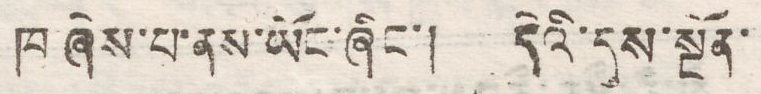ཁ ཞེས་པ་ནས་ཡོང་ཞིང་། དེའི་དུས་སྔོན་
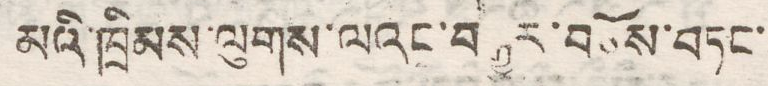མའི་ཁྲིམས་ལུགས་ལའང་བརྒྱུར་བཅོས་བཏང་
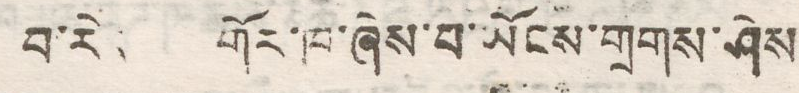བ་རེ། གོར་ཁ་ཞེས་པ་ཡོངས་གྲགས་ཤེས
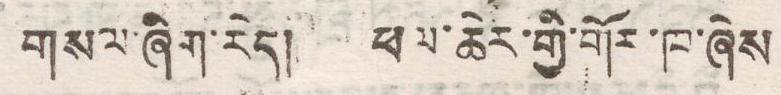གསལ་ཞིག་རེད། ཕལ་ཆེར་གྱི་གོར་ཁ་ཞེས
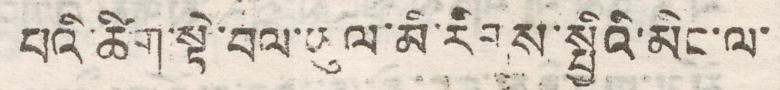པའི་ཚིག་སྟེ་བལ་ཡུལ་མི་རིགས་སྤྱིའི་མིང་ལ་
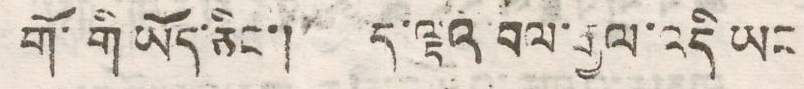གོ་གི་ཡོད་ཅིང་། ད་ལྟའི་བལ་རྒྱལ་འདི ཡང
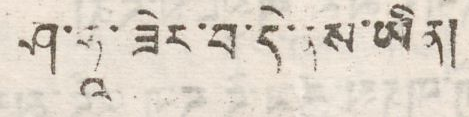ཤ་ཧྭ་ཟེར་བ་དེ་ནས་ཡིན།
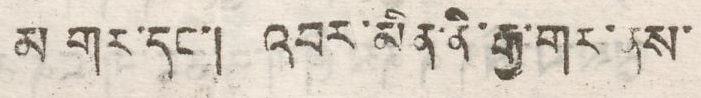མ གར་དང་། འབར་མིན་ནི་རྒྱ་གར་ནས་
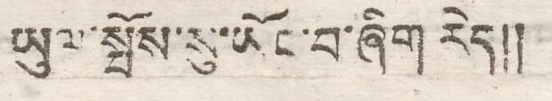ཡུལ་སྤོས་སུ་ཡོང་བ་ཞིག རེད།།
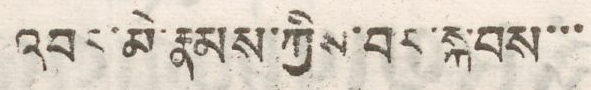འབར་མི་རྣམས་ཀྱིས་བར་སྐབས་་་
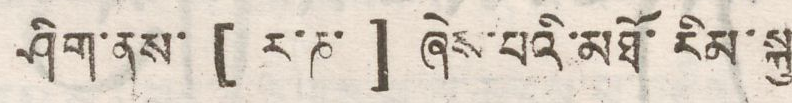ཤིག་ནས་ [ ར་ཎ་ ] ཞེས་པའི་མཐོ་རིམ་སྐུ
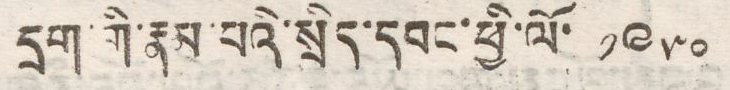དྲག་གི་རྣམ་པའི་སྲིད་དབང་ཕྱི་ལོ་ ༡༩༥༠
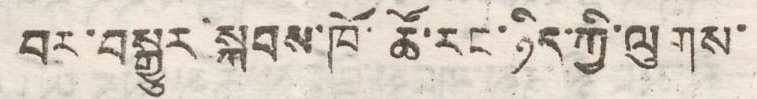བར་བསྒྱུར་སྐབས་ཁོ་ཚོ་རང་ཉིད་ཀྱི་ལུགས་
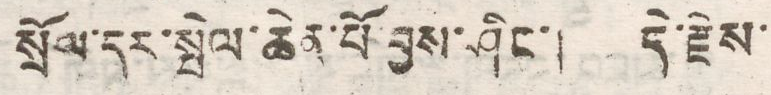སྲོལ་དར་སྤེལ་ཆེན་པོ་བྱས་ཤིང་། དེ་རྗེས་
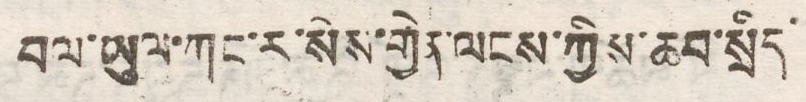བལ་ཡུལ་ཀང་ར་སེས་གྱེན་ལངས་ཀྱིས་ཆབ་སྲིད་
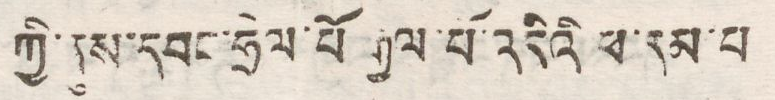ཀྱི་ནས་དབང་ཧྲེལ་པོ རྒྱལ་པོ་འདིའི ཕ་རམ་པ
